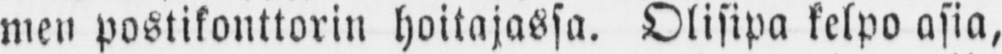men postikonttorin hoitajassa. Olisipa kelpo asia,
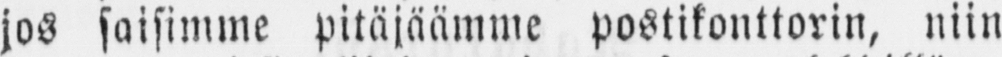jos saisimme pitäjäämme postikonttorin, niin
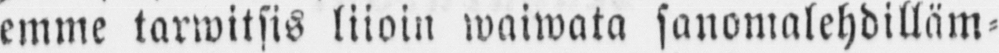emme tarwitsis liioin waiwata sanomalehdilläm-
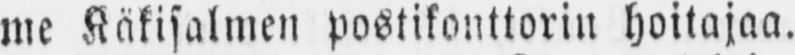me Käkisalmen postikonttorin hoitajaa.
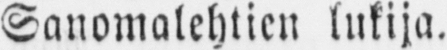Sanomalehtien lukija.
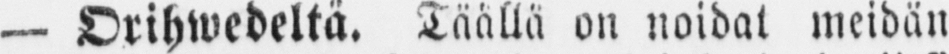— Orihwedeltä. Täällä on noidat meidän
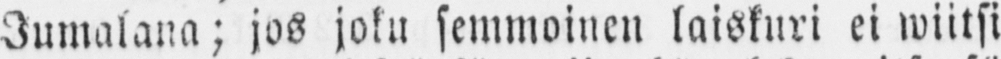Jumalana; jos joku semmoinen laiskuri ei wiitsi
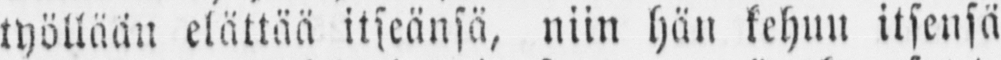työllään elättää itseänsä, niin hän kehuu itsensä
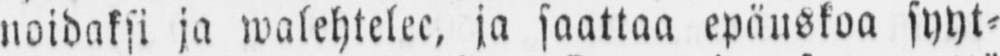noidaksi ja walehtelee, ja saattaa epäuskoa syyt-
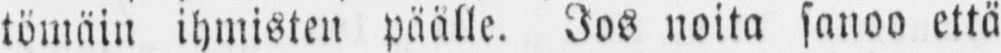tömäin ihmisten päälle. Jos noita sanoo että
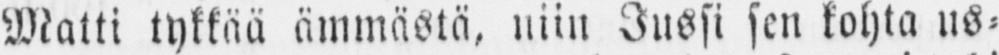Matti tykkää ämmästä, niin Jussi sen kohta us-
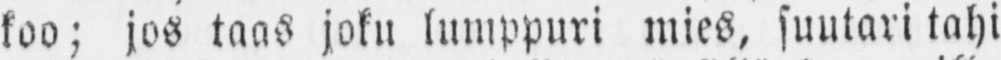koo; jos taas joku lumppuri mies, suutari tahi
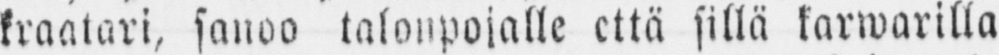kraatari, sanoo talonpojalle että sillä karwarilla
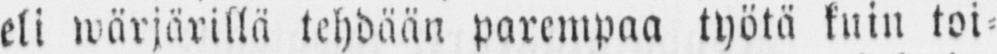eli wärjärillä tehdään parempaa työtä kuin toi-
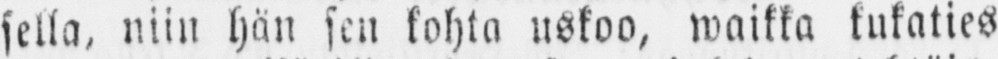sella, niin hän sen kohta uskoo, waikka kukaties
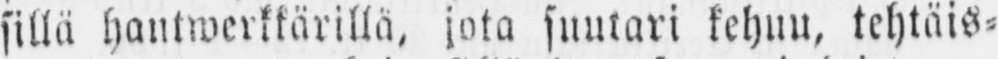sillä hantwerkkärillä, jota suutari kehuu, tehtäis-
